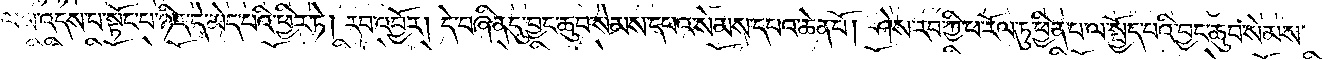ལས་འདས་པ་སྟོང་པ་ཉིད་དེ་མེད་པའི་ཕྱིར་ཏེ། རབ་འབྱོར། དེ་བཞིན་དུ་བྱང་ཆུབ་སེམས་དཔའ་དང་སེམས་དཔའ་ཆེན་པོ། ཤེས་རབ་ཀྱི་ཕ་རོལ་ཏུ་ཕྱིན་པ་ལ་སྤྱོད་པའི་བྱང་ཆུབ་སེམས་
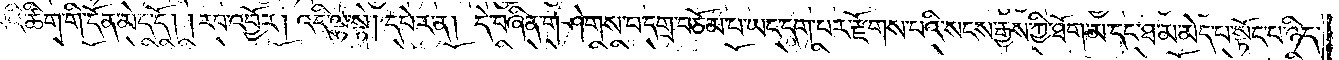དཔའི་ཚིག་གི་དོན་མེད་དོ། །རབ་འབྱོར། འདི་ལྟ་སྟེ། དཔེར་ན། དེ་བཞིན་གཤེགས་པ་དགྲ་བཅོམ་པ་ཡང་དག་པར་རྫོགས་པའི་སངས་རྒྱས་ཀྱི་ཐོག་མ་དང་ཐ་མ་མེད་པ་སྟོང་པ་ཉིད་
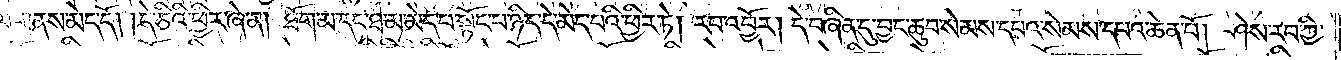ལ་གནས་མེད་དོ། །དེ་ཅིའི་ཕྱིར་ཞེ་ན། ཐོག་མ་དང་ཐ་མ་མེད་པ་སྟོང་པ་ཉིད་དེ་མེད་པའི་ཕྱིར་ཏེ། རབ་འབྱོར། དེ་བཞིན་དུ་བྱང་ཆུབ་སེམས་དཔའ་སེམས་དཔའ་ཆེན་པོ། ཤེས་རབ་ཀྱི་
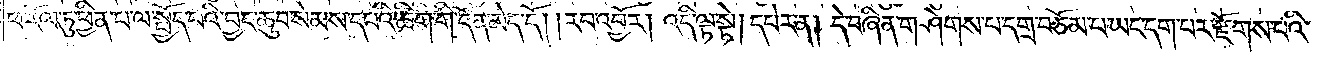ཕ་རོལ་ཏུ་ཕྱིན་པ་ལ་སྤྱོད་པའི་བྱང་ཆུབ་སེམས་དཔའི་ཚིག་གི་དོན་མེད་དོ། །རབ་འབྱོར། འདི་ལྟ་སྟེ། དཔེར་ན། དེ་བཞིན་གཤེགས་པ་དགྲ་བཅོམ་པ་ཡང་དག་པར་རྫོགས་པའི་
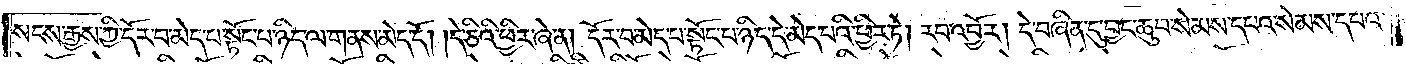སངས་རྒྱས་ཀྱི་དོར་བ་མེད་པ་སྟོང་པ་ཉིད་ལ་གནས་མེད་དོ། །དེ་ཅིའི་ཕྱིར་ཞེ་ན། དོར་བ་མེད་པ་སྟོང་པ་ཉིད་དེ་མེད་པའི་ཕྱིར་ཏེ། རབ་འབྱོར། དེ་བཞིན་དུ་བྱང་ཆུབ་སེམས་དཔའ་སེམས་དཔའ་
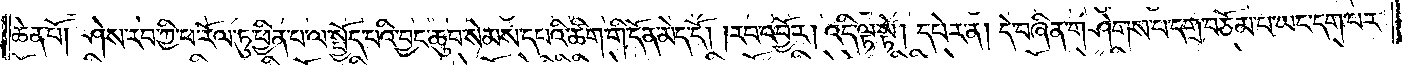ཆེན་པོ། ཤེས་རབ་ཀྱི་ཕ་རོལ་ཏུ་ཕྱིན་པ་ལ་སྤྱོད་པའི་བྱང་ཆུབ་སེམས་དཔའི་ཚིག་གི་དོན་མེད་དོ། རབ་འབྱོར། འདི་ལྟ་སྟེ། དཔེར་ན། དེ་བཞིན་གཤེགས་པ་དགྲ་བཅོམ་པ་ཡང་དག་པར་
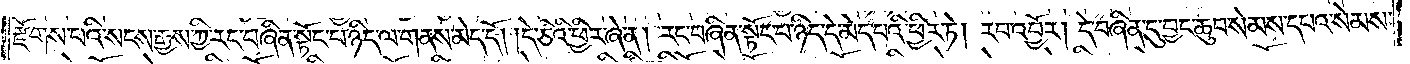རྫོགས་པའི་སངས་རྒྱས་ཀྱི་རང་བཞིན་སྟོང་པ་ཉིད་ལ་གནས་མེད་དེ། །དེ་ཅིའི་ཕྱིར་ཞེ་ན། རང་བཞིན་སྟོང་པ་ཉིད་དེ་མེད་པའི་ཕྱིར་ཏེ། རབ་འབྱོར། དེ་བཞིན་དུ་བྱང་ཆུབ་སེམས་དཔའ་སེམས་
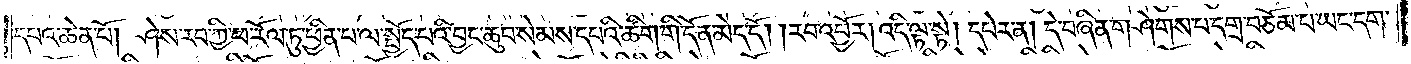དཔའ་ཆེན་པོ། ཤེས་རབ་ཀྱི་ཕ་རོལ་ཏུ་ཕྱིན་པ་ལ་སྤྱོད་པའི་བྱང་ཆུབ་སེམས་དཔའི་ཚིག་གི་དོན་མེད་དོ། །རབ་འབྱོར། འདི་ལྟ་སྟེ། དཔེར་ན། དེ་བཞིན་གཤེགས་པ་དགྲ་བཅོམ་པ་ཡང་དག་
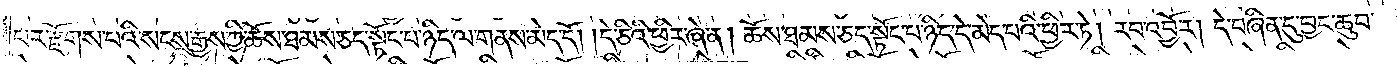པར་རྫོགས་པའི་སངས་རྒྱས་ཀྱི་ཆོས་ཐམས་ཅད་སྟོང་པ་ཉིད་ལ་གནས་མེད་དོ། །དེ་ཅིའི་ཕྱིར་ཞེ་ན། ཆོས་ཐམས་ཅད་སྟོང་པ་ཉིད་དེ་མེད་པའི་ཕྱིར་ཏེ། རབ་འབྱོར། དེ་བཞིན་དུ་བྱང་ཆུབ་
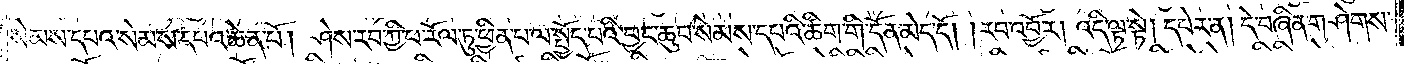སེམས་དཔའ་སེམས་དཔའ་ཆེན་པོ། ཤེས་རབ་ཀྱི་ཕ་རོལ་ཏུ་ཕྱིན་པ་ལ་སྤྱོད་པའི་བྱང་ཆུབ་སེམས་དཔའི་ཚིག་གི་དོན་མེད་དོ། །རབ་འབྱོར། འདི་ལྟ་སྟེ། དཔེར་ན། དེ་བཞིན་གཤེགས་
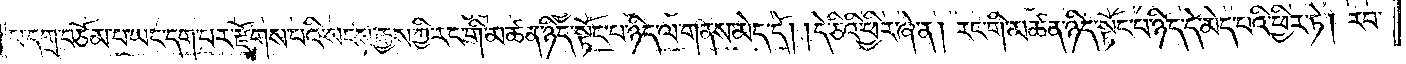པ་དགྲ་བཅོམ་པ་ཡང་དག་པར་རྫོགས་པའི་སངས་རྒྱས་ཀྱི་རང་གི་མཚན་ཉིད་སྟོང་པ་ཉིད་ལ་གནས་མེད་དོ། །དེ་ཅིའི་ཕྱིར་ཞེ་ན། རང་གི་མཚན་ཉིད་སྟོང་པ་ཉིད་དེ་མེད་པའི་ཕྱིར་ཏེ། རབ་
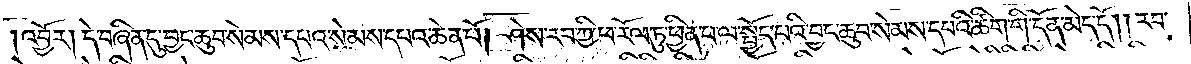འབྱོར། དེ་བཞིན་དུ་བྱང་ཆུབ་སེམས་དཔའ་སེམས་དཔའ་ཆེན་པོ། ཤེས་རབ་ཀྱི་ཕ་རོལ་ཏུ་ཕྱིན་པ་ལ་སྤྱོད་པའི་བྱང་ཆུབ་སེམས་དཔའི་ཚིག་གི་དོན་མེད་དོ། །རབ་
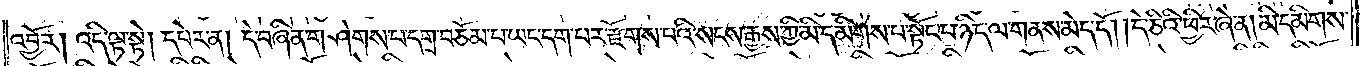འབྱོར། འདི་ལྟ་སྟེ། དཔེར་ན། དེ་བཞིན་གཤེགས་པ་དགྲ་བཅོམ་པ་ཡང་དག་པར་རྫོགས་པའི་སངས་རྒྱས་ཀྱི་མི་དམིགས་པ་སྟོང་པ་ཉིད་ལ་གནས་མེད་དོ། །དེ་ཅིའི་ཕྱིར་ཞེ་ན། མི་དམིགས་
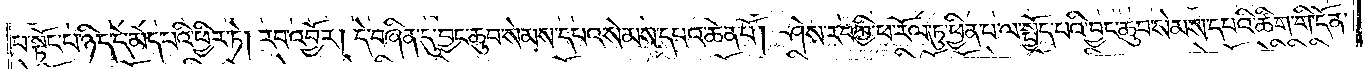པ་སྟོང་པ་ཉིད་དེ་མེད་པའི་ཕྱིར་ཏེ། རབ་འབྱོར། དེ་བཞིན་དུ་བྱང་ཆུབ་སེམས་དཔའ་སེམས་དཔའ་ཆེན་པོ། ཤེས་རབ་ཀྱི་ཕ་རོལ་ཏུ་ཕྱིན་པ་ལ་སྤྱོད་པའི་བྱང་ཆུབ་སེམས་དཔའི་ཚིག་གི་དོན་
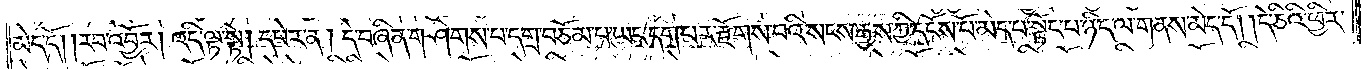མེད་དོ། །རབ་འབྱོར། འདི་ལྟ་སྟེ། དཔེར་ན། དེ་བཞིན་གཤེགས་པ་དགྲ་བཅོམ་པ་ཡང་དག་པར་རྫོགས་པའི་སངས་རྒྱས་ཀྱི་དངོས་པོ་མེད་པ་སྟོང་པ་ཉིད་ལ་གནས་མེད་དོ། །དེ་ཅིའི་ཕྱིར་
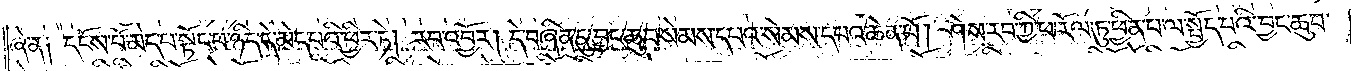ཞེ་ན། དངོས་པོ་མེད་པ་སྟོང་པ་ཉིད་དེ་མེད་པའི་ཕྱིར་ཏེ། རབ་འབྱོར། དེ་བཞིན་དུ་བྱང་ཆུབ་སེམས་དཔའ་སེམས་དཔའ་ཆེན་པོ། ཤེས་རབ་ཀྱི་ཕ་རོལ་ཏུ་ཕྱིན་པ་ལ་སྤྱོད་པའི་བྱང་ཆུབ་
